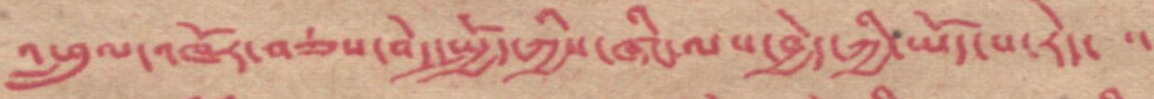འཕྲུལ་འཁོར་བཅས་བདེ་སྤྱོད་ཀྱིས་ཞིང་ལས་བྱེད་ཀྱི་ཡོད་པ་རེད་་་
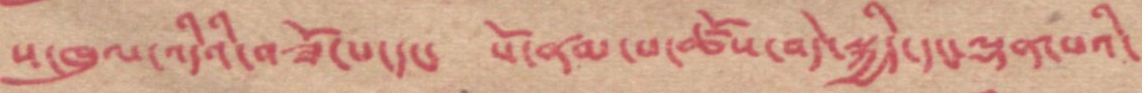ས་ཁུལ་འདིའི་བཟོ་པ་དང་ སོ་ནམ་པ་ཚོས་བདེ་སྐྱིད་དང་ལྡན་པའི་
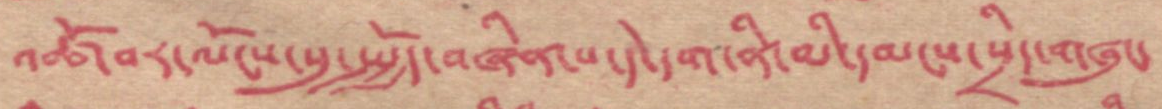འཚོ་བར་ལོངས་སུ་སྤྱོད་བཞིན་པ་དེ་དག་ནི་མི་དམངས་སྲིད་གཞུང་
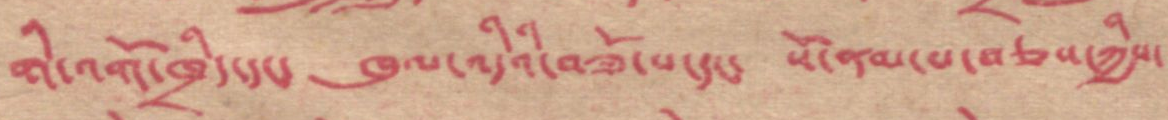གི་འགོ་ཁྲིད་དང་ ཁུལ་འདིའི་བཟོ་པ་དང་ སོ་ནམ་བཅས་ཀྱིས་
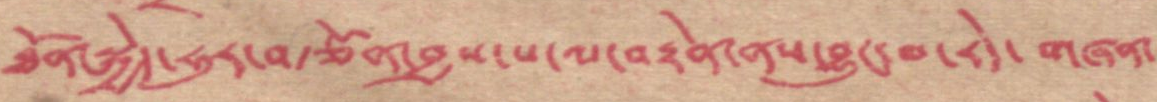ཐོན་སྐྱེད་ཧུར་བརྩོན་བྱས་པ་ལ་བརྟེན་ནས་བྱུང་བ་རེད་ གཞན་
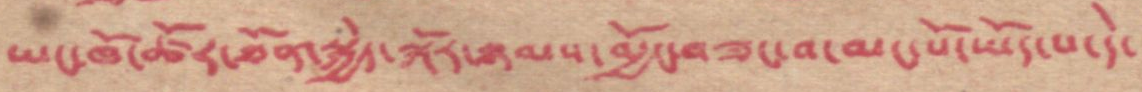ཡང་ཁོ་ཚོར་ཐོན་སྐྱེད་སྐོར་ཉམས་མྱོང་བཟང་བ་མང་པོ་ཡོད་པ་དེ་
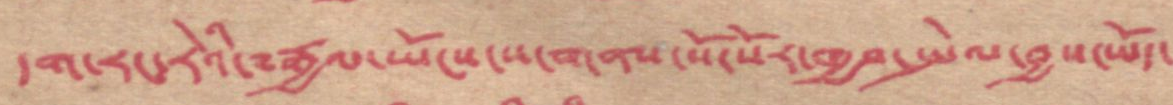དག་རང་རེའི་༸རྒྱལ་ཡོངས་གནས་སོ་སོར་ཁྱབ་སྤེལ་བྱས་ཡོད་
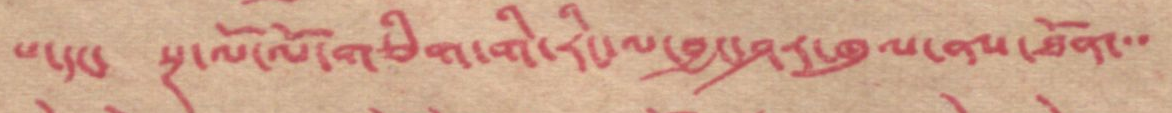པ་དང་ སྔ་ལོ་ལོ་གཅིག་གི་རིང་ལ་བྱ་ཤར་ཁུལ་ནས་ཐོན་་
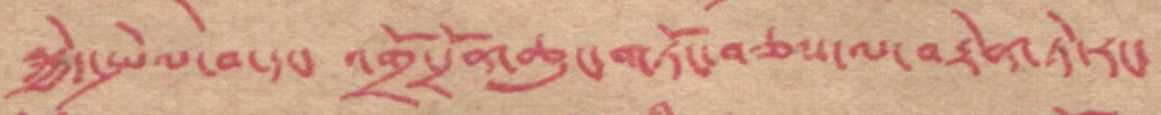སྐྱེད་སྤེལ་བ་དང་ འགྲོ་དྲོན་ཆུང་གཏོང་བཅས་ལ་བརྟེན་ཏེ་རང་
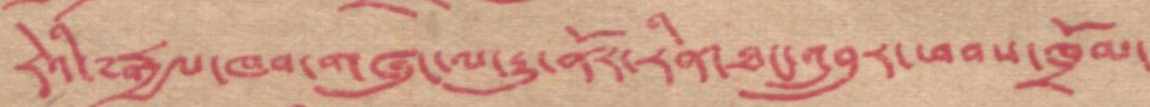རེའི་༸རྒྱལ་ཁབ་གཞུང་རྒྱུ་ནོར་རིན་ཐང་འབྲུལ་ཕབས་ཁྲོམ་
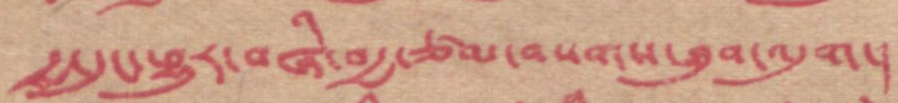རྒྱ་དུང་ཕྱུར་བཞི་བརྒྱ་ཙམ་བསགས་ཐུག་ལུག།
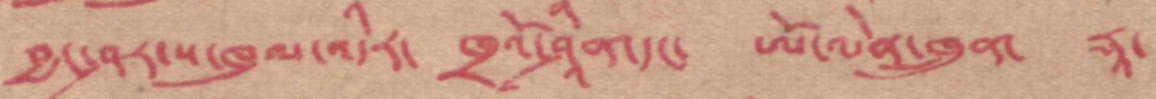བྱང་ཤར་ས་ཁུལ་འདིར་ ཁྲའོ་ཤིན་དང་ ཨོ་ལེན་ཁྲུན་ ཏཱ་
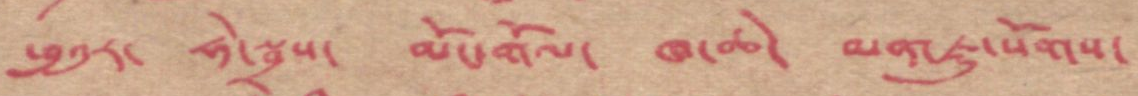ཕུའུར་ ཧྲེ་སྦྲས་ མོང་གོལ་ ཁ་ཆེ་ མན་ཇུ་སོགས་
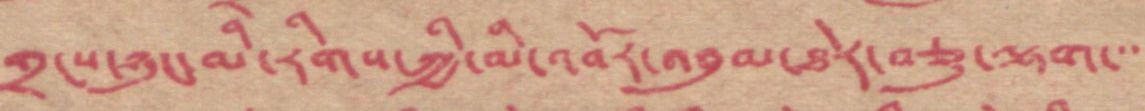གྲངས་ཉུང་མི་རིགས་ཀྱི་མི་འབོར་ཐེར་བཟུ་ལྷག་་་
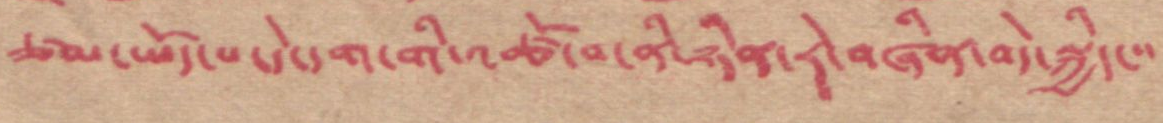ཙམ་ཡོད་པ་དེ་དག་གི་འཚོ་བ་ནི་ཉིན་རེ་བཞིན་བདེ་སྐྱིད་་་
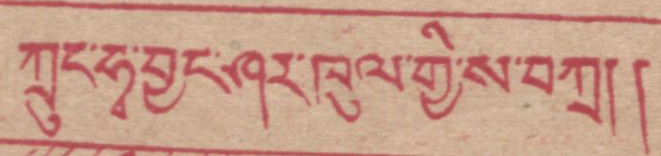ཀྲུང་ཧྭ་བྱང་ཤར་ཁུལ་གྱི་ས་བཀྲ།།
